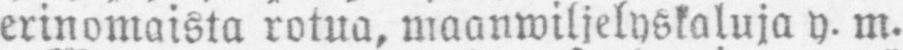erinomaista rotua, maanwiljelyskaluja y. m.
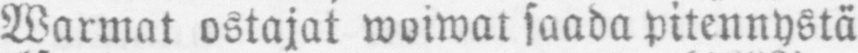Warmat ostajat woiwat saada pitennystä
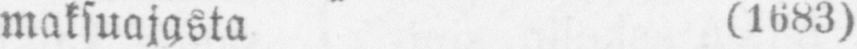maksuajasta (1683)
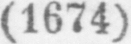(1674)
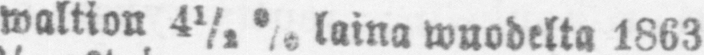Suomen waltion 4½ % laina wuodelta 1863
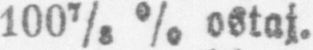100⅞ % ostaj.
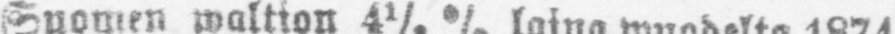Suomen waltion 4½ % laina wuodelta 1874
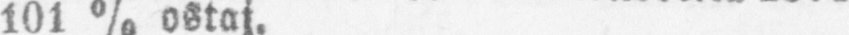101 % ostaj.
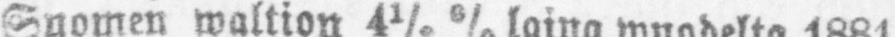Suomen waltion 4½ % laina wuodelta 1881
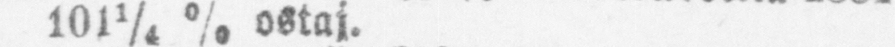101¼ % ostaj.
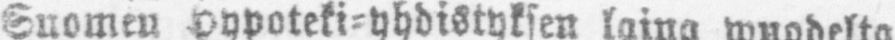Suomen Hypoteki-yhdistyksen laina wuodelta
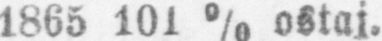1865 101 % ostaj.
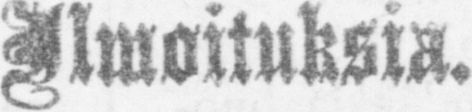Ilmoituksia.
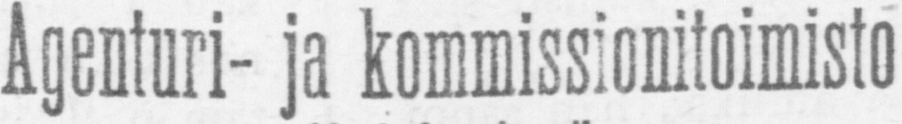Agenturi- ja kommissionitoimisto
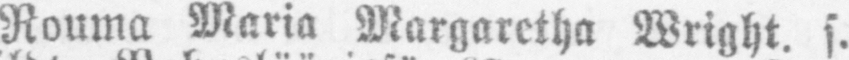Rouma Maria Margaretha Wright, s.
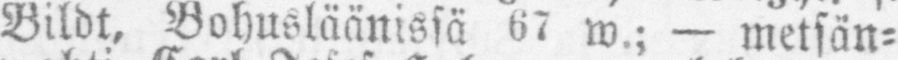Bildt, Bohusläänissä 67 w.; — metsän-
